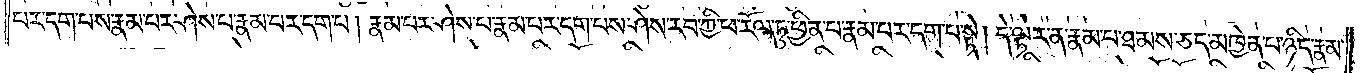པར་དག་པས་རྣམ་པར་ཤེས་པ་རྣམ་པར་དག་པ། རྣམ་པར་ཤེས་པ་རྣམ་པར་དག་པས་ཤེས་རབ་ཀྱི་ཕ་རོལ་ཏུ་ཕྱིན་པ་རྣམ་པར་དག་པ་སྟེ། དེ་ལྟར་ན་རྣམ་པ་ཐམས་ཅད་མཁྱེན་པ་ཉིད་རྣམ་
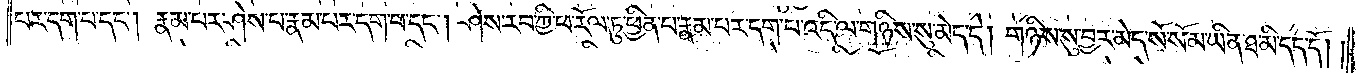པར་དག་པ་དང༌། རྣམ་པར་ཤེས་པ་རྣམ་པར་དག་པ་དང༌། ཤེས་རབ་ཀྱི་ཕ་རོལ་ཏུ་ཕྱིན་པ་རྣམ་པར་དག་པ་འདི་ལ་གཉིས་སུ་མེད་དེ། གཉིས་སུ་བྱར་མེད་སོ་སོ་མ་ཡིན་ཐ་མི་དད་དོ། །
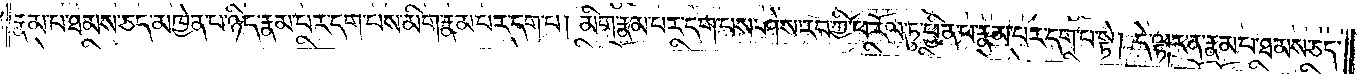རྣམ་པ་ཐམས་ཅད་མཁྱེན་པ་ཉིད་རྣམ་པར་དག་པས་མིག་རྣམ་པར་དག་པ། མིག་རྣམ་པར་དག་པས་ཤེས་རབ་ཀྱི་ཕ་རོལ་ཏུ་ཕྱིན་པ་རྣམ་པར་དག་པ་སྟེ། དེ་ལྟར་ན་རྣམ་པ་ཐམས་ཅད་
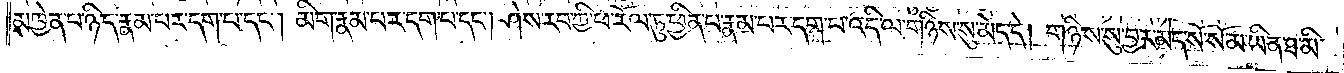མཁྱེན་པ་ཉིད་རྣམ་པར་དག་པ་དང༌། མིག་རྣམ་པར་དག་པ་དང༌། ཤེས་རབ་ཀྱི་ཕ་རོལ་ཏུ་ཕྱིན་པ་རྣམ་པར་དག་པ་འདི་ལ་གཉིས་སུ་མེད་དེ། གཉིས་སུ་བྱར་མེད་སོ་སོ་མ་ཡིན་ཐ་མི་
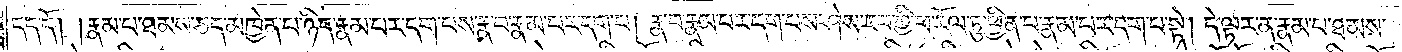དད་དོ། །རྣམ་པ་ཐམས་ཅད་མཁྱེན་པ་ཉིད་རྣམ་པར་དག་པས་རྣ་བ་རྣམ་པར་དག་པ། རྣ་བ་རྣམ་པར་དག་པས་ཤེས་རབ་ཀྱི་ཕ་རོལ་ཏུ་ཕྱིན་པ་རྣམ་པར་དག་པ་སྟེ། དེ་ལྟར་ན་རྣམ་པ་ཐམས་
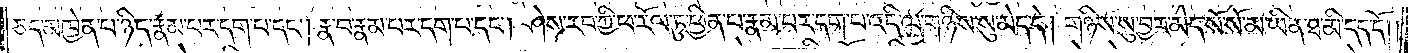ཅད་མཁྱེན་པ་ཉིད་རྣམ་པར་དག་པ་དང༌། རྣ་བ་རྣམ་པར་དག་པ་དང༌། ཤེས་རབ་ཀྱི་ཕ་རོལ་ཏུ་ཕྱིན་པ་རྣམ་པར་དག་པ་འདི་ལ་གཉིས་སུ་མེད་དེ། གཉིས་སུ་བྱར་མེད་སོ་སོ་མ་ཡིན་ཐ་མི་དད་དོ། །
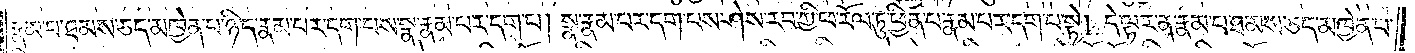རྣམ་པ་ཐམས་ཅད་མཁྱེན་པ་ཉིད་རྣམ་པར་དག་པས་སྣ་རྣམ་པར་དག་པ། སྣ་རྣམ་པར་དག་པས་ཤེས་རབ་ཀྱི་ཕ་རོལ་ཏུ་ཕྱིན་པ་རྣམ་པར་དག་པ་སྟེ། དེ་ལྟར་ན་རྣམ་པ་ཐམས་ཅད་མཁྱེན་པ་
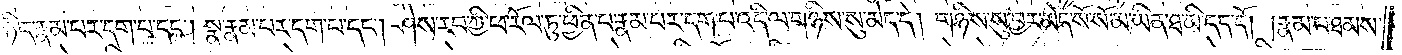ཉིད་རྣམ་པར་དག་པ་དང༌། སྣ་རྣམ་པར་དག་པ་དང༌། ཤེས་རབ་ཀྱི་ཕ་རོལ་ཏུ་ཕྱིན་པ་རྣམ་པར་དག་པ་འདི་ལ་གཉིས་སུ་མེད་དེ། གཉིས་སུ་བྱར་མེད་སོ་སོ་མ་ཡིན་ཐ་མི་དད་དོ། །རྣམ་པ་ཐམས་
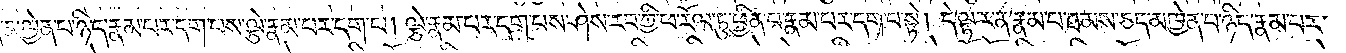ཅད་མཁྱེན་པ་ཉིད་རྣམ་པར་དག་པས་ལྕེ་རྣམ་པར་དག་པ། ལྕེ་རྣམ་པར་དག་པས་ཤེས་རབ་ཀྱི་ཕ་རོལ་ཏུ་ཕྱིན་པ་རྣམ་པར་དག་པ་སྟེ། དེ་ལྟར་ན་རྣམ་པ་ཐམས་ཅད་མཁྱེན་པ་ཉིད་རྣམ་པར་
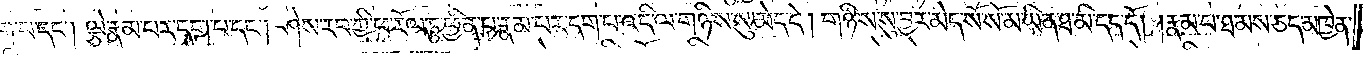དག་པ་དང༌། ལྕེ་རྣམ་པར་དག་པ་དང༌། ཤེས་རབ་ཀྱི་ཕ་རོལ་ཏུ་ཕྱིན་པ་རྣམ་པར་དག་པ་འདི་ལ་གཉིས་སུ་མེད་དེ། གཉིས་སུ་བྱར་མེད་སོ་སོ་མ་ཡིན་ཐ་མི་དད་དོ། །རྣམ་པ་ཐམས་ཅད་མཁྱེན་
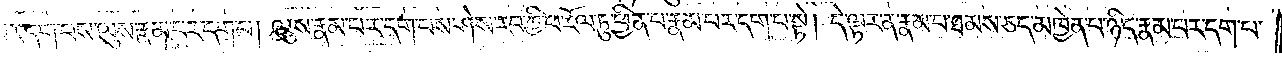པ་ཉིད་རྣམ་པར་དག་པས་ལུས་རྣམ་པར་དག་པ། ལུས་རྣམ་པར་དག་པས་ཤེས་རབ་ཀྱི་ཕ་རོལ་ཏུ་ཕྱིན་པ་རྣམ་པར་དག་པ་སྟེ། དེ་ལྟར་ན་རྣམ་པ་ཐམས་ཅད་མཁྱེན་པ་ཉིད་རྣམ་པར་དག་པ་
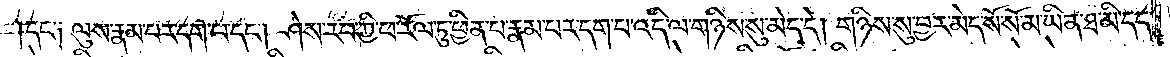དང་༑ ལུས་རྣམ་པར་དག་པ་དང༌། ཤེས་རབ་ཀྱི་ཕ་རོལ་ཏུ་ཕྱིན་པ་རྣམ་པར་དག་པ་འདི་ལ་གཉིས་སུ་མེད་དེ། གཉིས་སུ་བྱར་མེད་སོ་སོ་མ་ཡིན་ཐ་མི་དད་
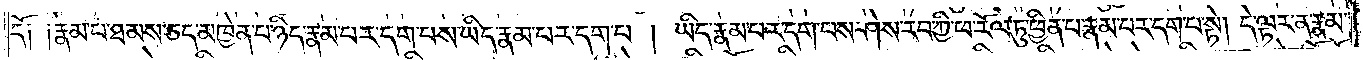དོ༑ ༑རྣམ་པ་ཐམས་ཅད་མཁྱེན་པ་ཉིད་རྣམ་པར་དག་པས་ཡིད་རྣམ་པར་དག་པ། ཡིད་རྣམ་པར་དག་པས་ཤེས་རབ་ཀྱི་ཕ་རོལ་ཏུ་ཕྱིན་པ་རྣམ་པར་དག་པ་སྟེ། དེ་ལྟར་ན་རྣམ་
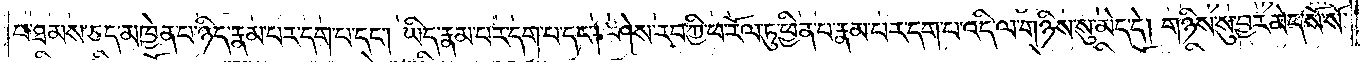པ་ཐམས་ཅད་མཁྱེན་པ་ཉིད་རྣམ་པར་དག་པ་དང༌། ཡིད་རྣམ་པར་དག་པ་དང༌། ཤེས་རབ་ཀྱི་ཕ་རོལ་ཏུ་ཕྱིན་པ་རྣམ་པར་དག་པ་འདི་ལ་གཉིས་སུ་མེད་དེ། གཉིས་སུ་བྱར་མེད་སོ་སོ་
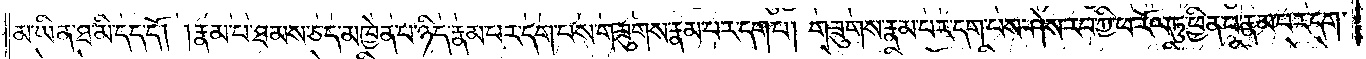མ་ཡིན་ཐ་མི་དད་དོ། །རྣམ་པ་ཐམས་ཅད་མཁྱེན་པ་ཉིད་རྣམ་པར་དག་པས་གཟུགས་རྣམ་པར་དག་པ། གཟུགས་རྣམ་པར་དག་པས་ཤེས་རབ་ཀྱི་ཕ་རོལ་ཏུ་ཕྱིན་པ་རྣམ་པར་དག་
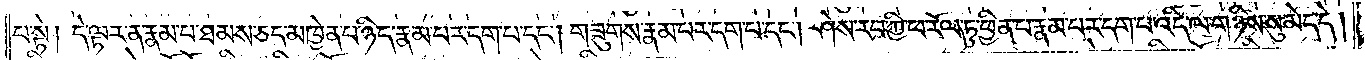པ་སྟེ། དེ་ལྟར་ན་རྣམ་པ་ཐམས་ཅད་མཁྱེན་པ་ཉིད་རྣམ་པར་དག་པ་དང༌། གཟུགས་རྣམ་པར་དག་པ་དང༌། ཤེས་རབ་ཀྱི་ཕ་རོལ་ཏུ་ཕྱིན་པ་རྣམ་པར་དག་པ་འདི་ལ་གཉིས་སུ་མེད་དེ།
